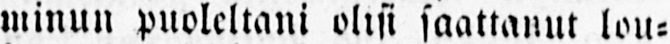minun puoleltani olisi saattanut lou-
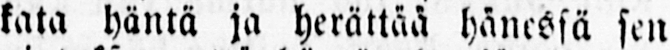kata häntä ja herättää hänessä sen
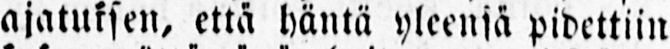ajatuksen, että häntä yleensä pidettiin
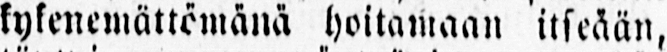kykenemättömänä hoitamaan itseään,
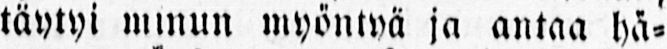täytyi minun myöntyä ja antaa hä-
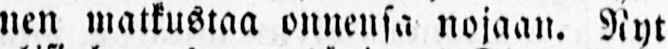nen matkustaa onnensa nojaan. Nyt
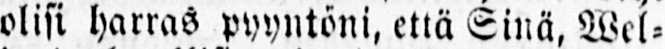olisi harras pyyntöni, että Sinä, Wel-
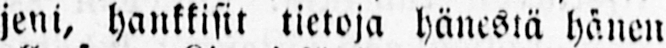jeni, hankkisit tietoja hänestä hänen
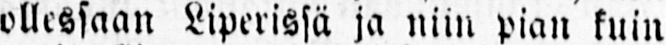ollessaan Liperissä ja niin pian kuin
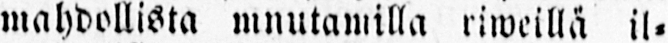mahdollista mnutamilla riweillä il-
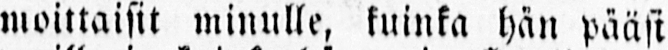moittaisit minulle, kuinka hän pääsi
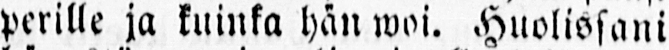perille ja kuinka hän woi. Huolissani
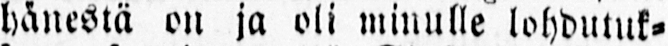hänestä on ja oli minulle lohdutuk-
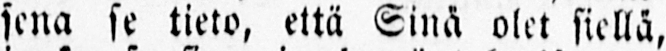sena se tieto, että Sinä olet siellä,
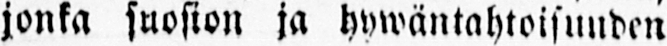jonka suosion ja hywäntahtoisuuden
